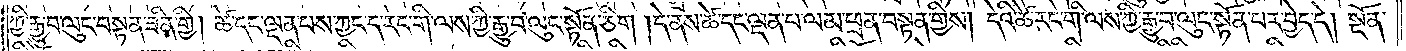ཀྱི་རྒྱུ་བ་ལུང་བསྟན་ཟིན་གྱི། ཚེ་དང་ལྡན་པས་ཀྱང་ད་རང་གི་ལས་ཀྱི་རྒྱུ་བ་ལུང་སྟོན་ཅིག །དེ་ནས་ཚེ་དང་ལྡན་པ་ལམ་ཕྲན་བསྟན་གྱིས། དེའི་ཚེ་རང་གི་ལས་ཀྱི་རྒྱུ་བ་ལུང་སྟོན་པར་བྱེད་དེ། སྔོན་
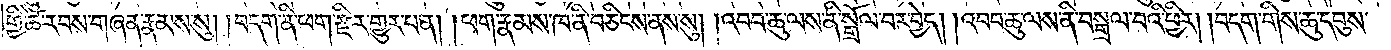གྱི་ཚེ་རབས་གཞན་རྣམས་སུ། །བདག་ནི་ཕག་རྫིར་གྱུར་པ་ན། །ཕག་རྣམས་ཁ་ནི་བཅིངས་ནས་སུ། །འབབ་ཆུ་ལས་ནི་སྒྲོལ་བར་བྱེད། །འབབ་ཆུ་ལས་ནི་བསྒྲལ་བའི་ཕྱིར། །བདག་གིས་ཆུ་དབུས་
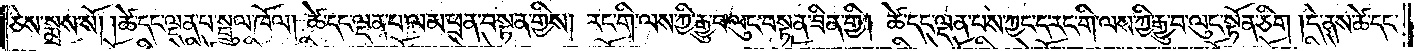ཅེས་སྨྲས་སོ། །ཚེ་དང་ལྡན་པ་སྦྲུལ་ཁོལ། ཚེ་དང་ལྡན་པ་ལམ་ཕྲན་བསྟན་གྱིས། རང་གི་ལས་ཀྱི་རྒྱུ་བ་ལུང་བསྟན་ཟིན་གྱི། ཚེ་དང་ལྡན་པས་ཀྱང་ད་རང་གི་ལས་ཀྱི་རྒྱུ་བ་ལུང་སྟོན་ཅིག །དེ་ནས་ཚེ་དང་
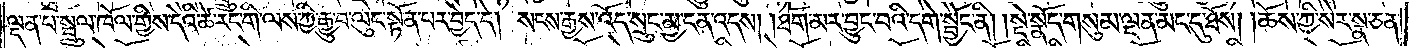ལྡན་པ་སྦྲུལ་ཁོལ་གྱིས་དེའི་ཚེ་རང་གི་ལས་ཀྱི་རྒྱུ་བ་ལུང་སྟོན་པར་བྱེད་དེ། སངས་རྒྱས་འོད་སྲུང་མྱ་ངན་འདས། །ཐོག་མར་བྱུང་བའི་དགེ་སྦྱོང་ནི། །སྡེ་སྣོད་གསུམ་ལྡན་མང་དུ་ཐོས། །ཆོས་ཀྱི་སེར་སྣ་ཅན་
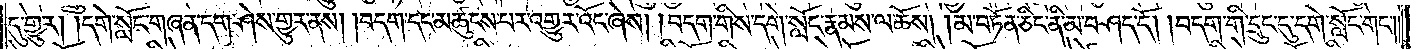དུ་གྱུར། །དགེ་སློང་གཞན་དག་ཤེས་གྱུར་ནས། །བདག་དང་མཚུངས་པར་འགྱུར་འོང་ཞེས། །བདག་གིས་དགེ་སློང་རྣམས་ལ་ཆོས། །མ་བཏོན་ཅིང་ནི་མ་བཤད་དོ། །བདག་གི་དྲུང་དུ་དགེ་སློང་གང༌༎
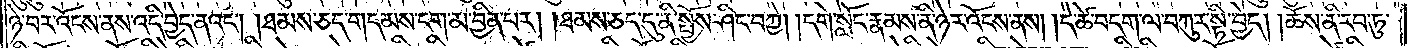ཉེ་བར་འོངས་ནས་འདི་བྱེད་ནའང༌། །ཐམས་ཅད་གདམས་ངག་མ་བྱིན་པར། །ཐམས་ཅད་དུ་ནི་སྤྱོས་ཤིང་བཀྱེ། །དགེ་སློང་རྣམས་ནི་ཉེར་འོངས་ནས། །དེ་ཚེ་བདག་ལ་བཀུར་སྟི་བྱེད། །ཆོས་ནི་རབ་ཏུ་
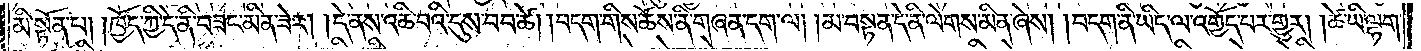མི་སྟོན་པ། །ཁྱོད་ཀྱི་དེ་ནི་བཟང་མིན་ཟེར། །དེ་ནས་འཆི་བའི་དུས་བབ་ཚེ། །བདག་གིས་ཆོས་ནི་གཞན་དག་ལ། །མ་བསྟན་དེ་ནི་ལེགས་མིན་ཞེས། །བདག་ནི་ཡིད་ལ་འགྱོད་པར་གྱུར། །ཚེ་ཡི་ལྷག་
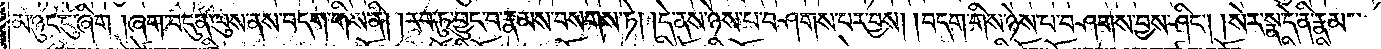མ་ཉུང་ངུ་ཞིག །ཞག་བདུན་ལུས་ནས་བདག་གིས་ནི། །རབ་ཏུ་བྱུང་བ་རྣམས་བསགས་ཏེ། །དེ་ནས་ཉེས་པ་བཤགས་པར་བྱས། །བདག་གིས་ཉེས་པ་བཤགས་བྱས་ཤིང༌། །སེར་སྣ་དེ་ནི་རྣམ་
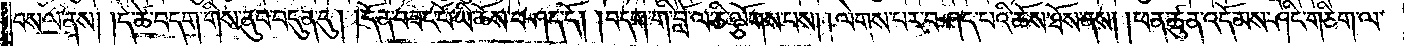བསལ་ནས། །དེ་ཚེ་བདག་གིས་ནུབ་བདུན་དུ། །དོན་བཟང་པོ་ཡི་ཆོས་བཤད་དོ། །བདག་གི་བློ་ལ་ཅི་ལྕོགས་པས། །ལེགས་པར་བཤད་པའི་ཆོས་ཐོས་ནས། །ཕན་ཚུན་འདོམས་ཤིང་གཅིག་ལ་
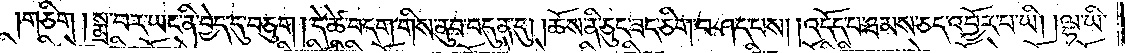གཅིག །སྨྲ་བར་ཡང་ནི་བྱེད་དུ་བཅུག །དེ་ཚེ་བདག་གིས་ནུབ་བདུན་དུ། །ཆོས་ནི་ཅུང་ཟད་ཅིག་བཤད་པས། །འདོད་པ་ཐམས་ཅད་འབྱོར་པ་ཡི། །ལྷ་ཡི་
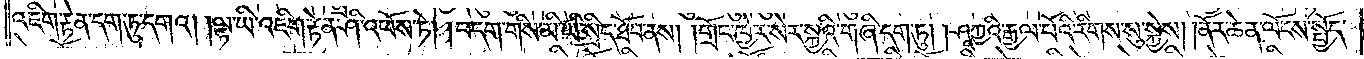འཇིག་རྟེན་དག་ཏུ་དགའ། །ལྷ་ཡི་འཇིག་རྟེན་ཤི་འཕོས་ཏེ། །བདག་གིས་མི་ཡི་སྲིད་ཐོབ་ནས། །གྲོང་ཁྱེར་སེར་སྐྱའི་གཞི་དག་ཏུ། །ཤཱཀྱའི་རྒྱལ་པོའི་རིགས་སུ་སྐྱེས། །ནོར་ཆེན་ལོངས་སྤྱོད་
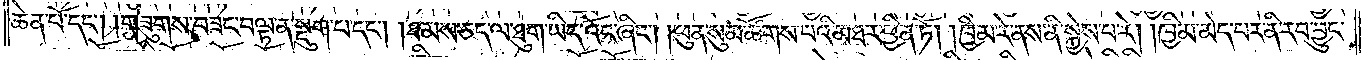ཆེན་པོ་དང༌། གཟུགས་བཟང་བལྟ་ན་སྡུག་པ་དང༌། །ཐམས་ཅད་ལ་ཐུག་ཡིད་འོང་ཞིང༌། །ཕུན་སུམ་ཚོགས་པའི་མཐར་ཕྱིན་ཏོ། །ཁྱིམ་རེ་ནས་ནི་སྐྱེས་པ་རེ། །ཁྱིམ་མེད་པར་ནི་རབ་བྱུང་
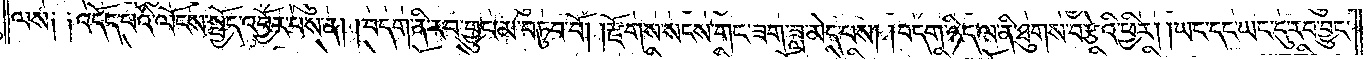ལས༑ ༑འདོད་པའི་ལོངས་སྤྱོད་འབྱོར་པས་ན། །བདག་ནི་རབ་བྱུང་མ་བཏུབ་པོ། །རྫོགས་སངས་གང་ཟག་ཟླ་མེད་པས། །བདག་ཉིད་ལ་ནི་ཐུགས་བརྩེའི་ཕྱིར། །ཡང་དང་ཡང་དུ་རབ་བྱུང་
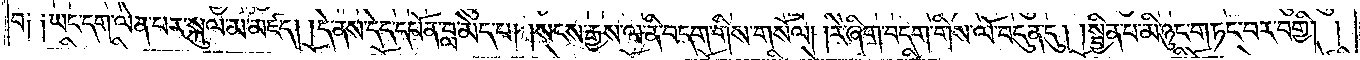བ༑ ༑ཡང་དག་ལེན་པར་སྐུལ་མ་མཛད། །དེ་ནས་དེད་དཔོན་བླ་མེད་པ། །སངས་རྒྱས་ལ་ནི་བདག་གིས་གསོལ། །རེ་ཞིག་བདག་གིས་ལོ་བདུན་དུ། །སྦྱིན་པ་མི་ཉུང་གཏང་བར་བགྱི། །
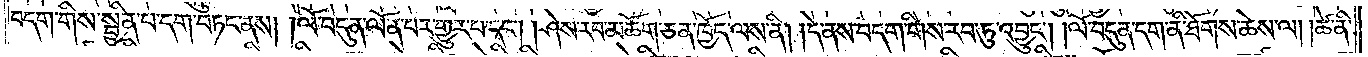བདག་གིས་སྦྱིན་པ་དག་བཏང་ནས། །ལོ་བདུན་ལོན་པར་གྱུར་པ་དང༌། །ཤེས་རབ་མཆོག་ཅན་ཁྱོད་ལས་ནི། །དེ་ནས་བདག་གིས་རབ་ཏུ་འབྱུང༌། །ལོ་བདུན་དག་ནི་ཐོགས་ཆེས་ལ། །ཚེ་ནི་
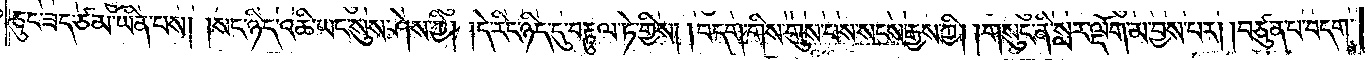ཅུང་ཟད་ཙམ་ཡིན་པས། །སང་ཉིད་འཆི་ཡང་སུས་ཤེས་ཀྱི། །དེ་རིང་ཉིད་དུ་བརྟུལ་ཏེ་གྱིས། །བདག་གིས་གུས་པས་སངས་རྒྱས་ཀྱི། །གསུང་ནི་སླར་ལྡོག་མ་བྱས་པར། །བཙུན་པ་བདག་
